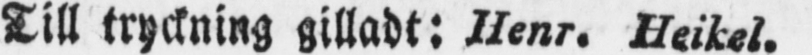Till tryckning gilladt: Henr. Heikel.
